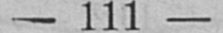111
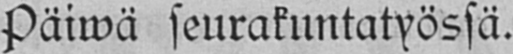Päiwä seurakuntatyössä.
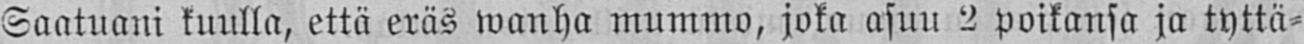Saatuani kuulla, että eräs wanha mummo, joka asuu 2 poikansa ja tyttä-
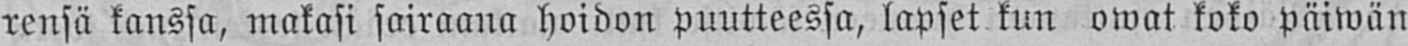rensä kanssa, makasi sairaana hoidon puutteessa, lapset kun owat koko päiwän
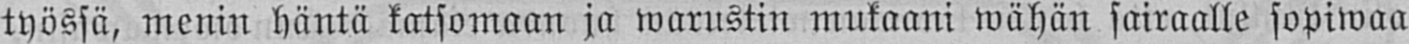työssä, menin häntä katsomaan ja warustin mukaani wähän sairaalle sopiwaa
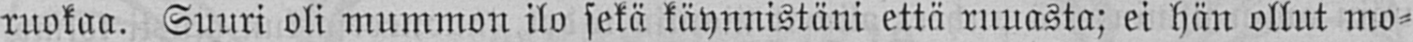ruokaa. Suuri oli mummon ilo sekä käynnistäni että ruuasta; ei hän ollut mo-
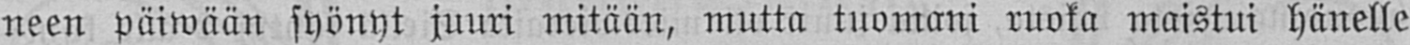neen päiwään syönyt juuri mitään, mutta tuomani ruoka maistui hänelle
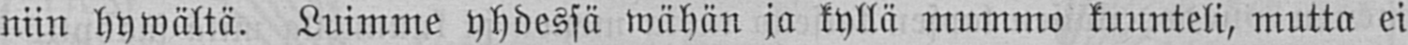niin hywältä. Luimme yhdessä wähän ja kyllä mummo kuunteli, mutta ei
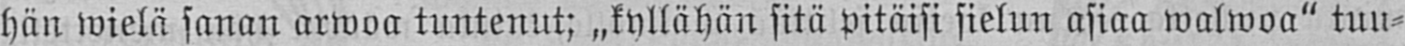hän wielä sanan arwoa tuntenut; „kyllähän sitä pitäisi sielun asiaa walwoa" tuu-
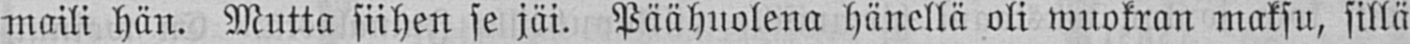maili hän. Mutta siihen se jäi. Päähuolena hänellä oli wuokran maksu, sillä
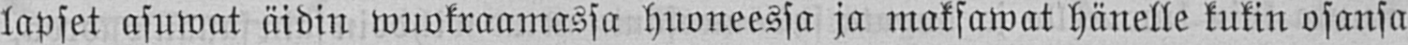lapset asuwat äidin wuokraamassa huoneessa ja maksawat hänelle kukin osansa
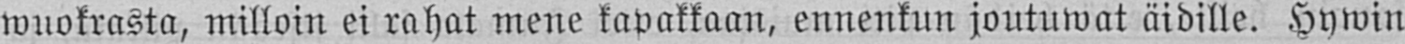wuokrasta, milloin ei rahat mene kapakkaan, ennenkun joutuwat äidille. Hywin
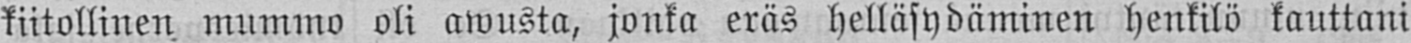kiitollinen mummo oli awusta, jonka eräs helläsydäminen henkilö kauttani
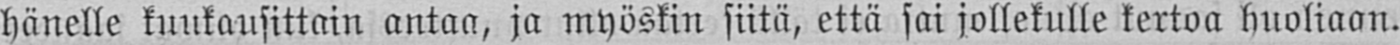hänelle kuukausittain antaa, ja myöskin siitä, että sai jollekulle kertoa huoliaan.
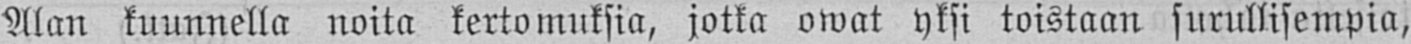Alan kuunnella noita kertomuksia, jotka owat yksi toistaan surullisempia,
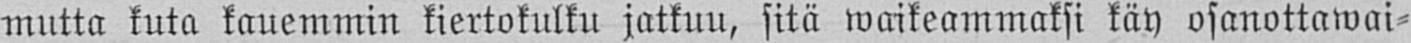mutta kuta kauemmin kiertokulku jatkuu, sitä waikeammaksi käy osanottawai-
